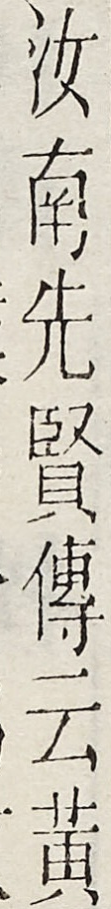汝南先賢傳云黃
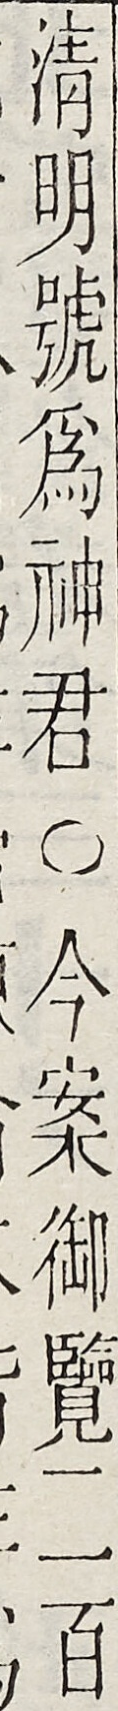清明號為神君○今案御覽二百
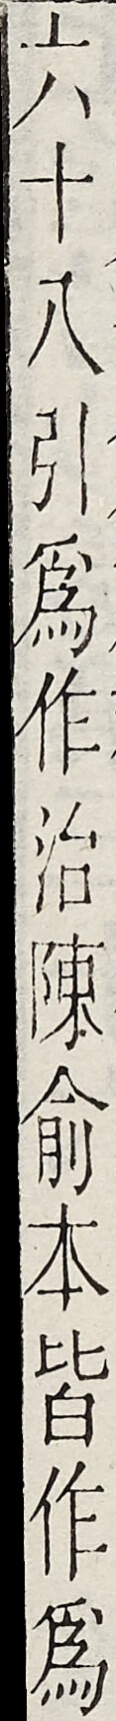六十八引為作治陳俞本皆作為
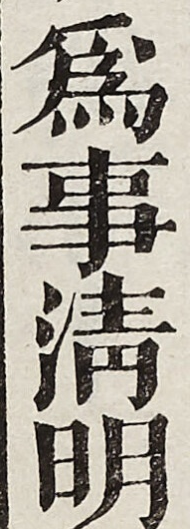為事清明
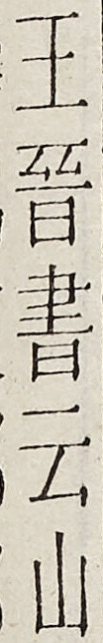王晉書云山
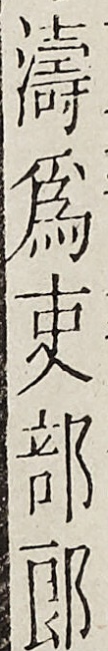濤為吏部郎
